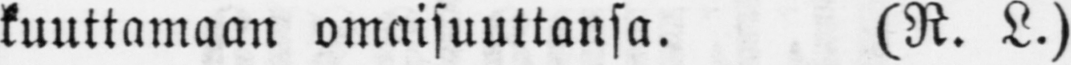kuuttamaan omaisuuttansa. (R. L.)
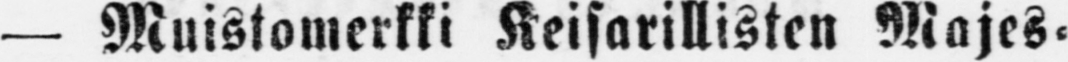— Muistomerkki Keisarillisten Majes-
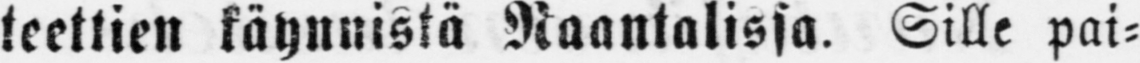teettien käynnistä Naantalissa. Sille pai-
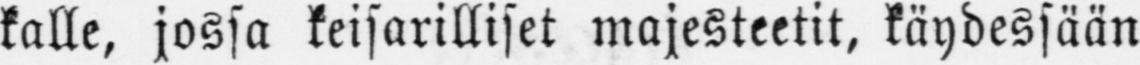kalle, jossa keisarilliset majesteetit, käydessään
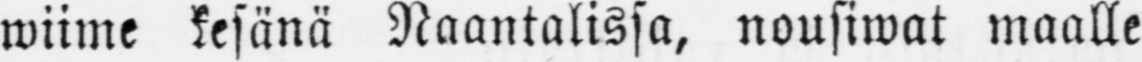wiime kesänä Naantalissa, nousiwat maalle
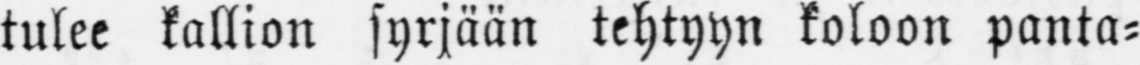tulee kallion syrjään tehtyyn koloon panta-
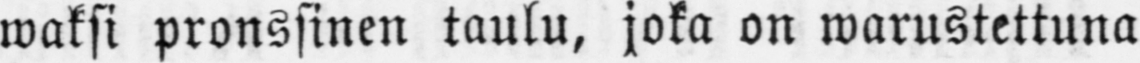waksi pronssinen taulu, joka on warustettuna
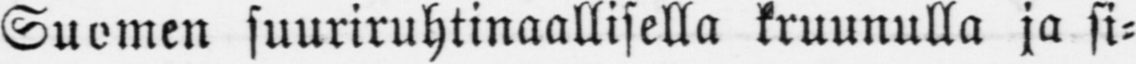Suomen suuriruhtinaallisella kruunulla ja si-
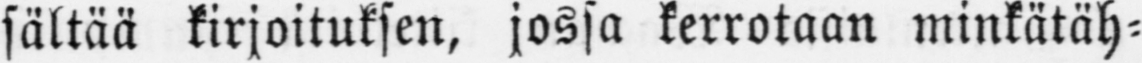sältää kirjoituksen, jossa kerrotaan minkätäh-
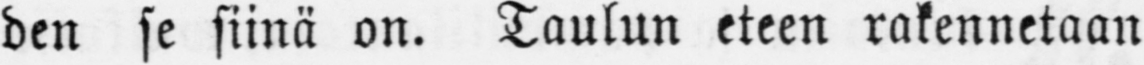den se siinä on. Taulun eteen rakennetaan
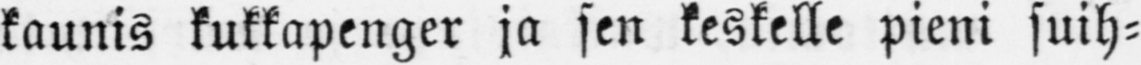kaunis kukkapenger ja sen keskelle pieni suih-
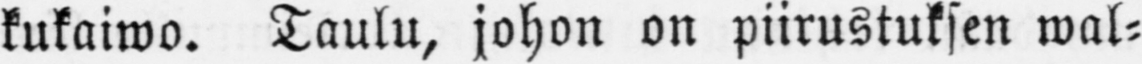kukaiwo. Taulu, johon on piirustuksen wal-
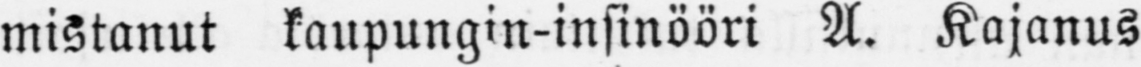mistanut kaupungin-insinööri A. Kajanus
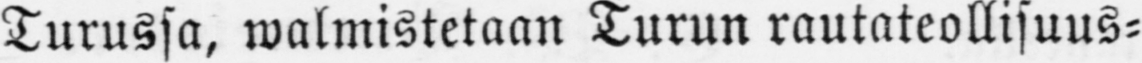Turussa, walmistetaan Turun rautateollisuus-
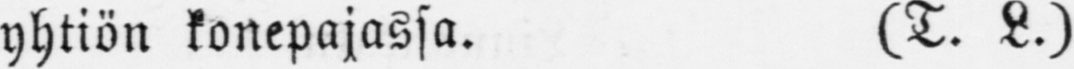yhtiön konepajassa. (T. L.)
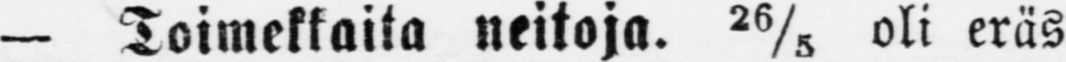— Toimekkaita neitoja, 26/5 oli eräs
